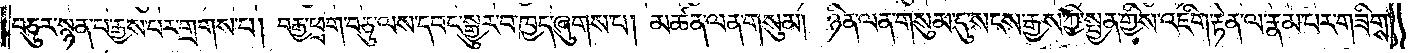བཅུར་སྙན་པ་རྒྱས་པར་གྲགས་པ། བརྒྱ་ཕྲག་བཅུ་ལས་དབང་སྒྱུར་བ་ཁྱད་ཞུགས་པ། མཚན་ལན་གསུམ། ཉིན་ལན་གསུམ་དུ་སངས་རྒྱས་ཀྱི་སྤྱན་གྱིས་འཇིག་རྟེན་ལ་རྣམ་པར་གཟིགས་
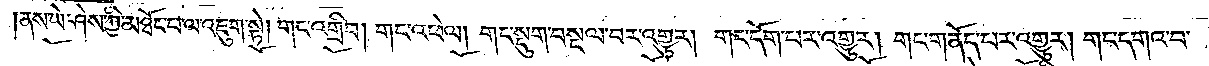ནས་ཡེ་ཤེས་ཀྱི་མཐོང་བ་ལ་འཇུག་སྟེ། གང་འགྲིབ། གང་འཕེལ། གང་སྡུག་བསྔལ་བར་འགྱུར། གང་དོག་པར་འགྱུར། གང་གནོད་པར་འགྱུར། གང་དགའ་བ་
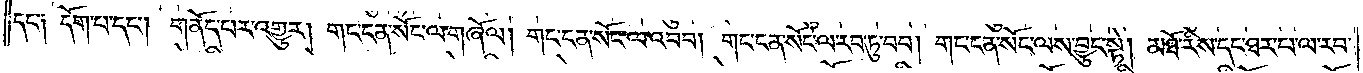དང་༑ དོག་པ་དང༌། གནོད་པར་འགྱུར། གང་ངན་སོང་ལ་གཞོལ། གང་ངན་སོང་ལ་འབབ། གང་ངན་སོང་ལ་རབ་ཏུ་བབ། གང་ངན་སོང་ལས་བྱུང་སྟེ། མཐོ་རིས་དང་ཐར་པ་ལ་རབ་
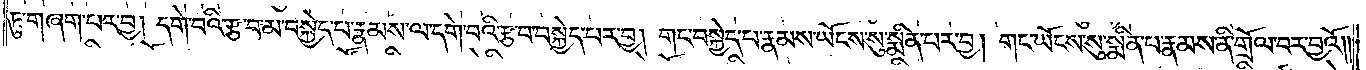ཏུ་གཞག་པར་བྱ། དགེ་བའི་རྩ་བ་མ་བསྐྱེད་པ་རྣམས་ལ་དགེ་བའི་རྩ་བ་བསྐྱེད་པར་བྱ། གང་བསྐྱེད་པ་རྣམས་ཡོངས་སུ་སྨིན་པར་བྱ། གང་ཡོངས་སུ་སྨིན་པ་རྣམས་ནི་གྲོལ་བར་བྱའོ༎
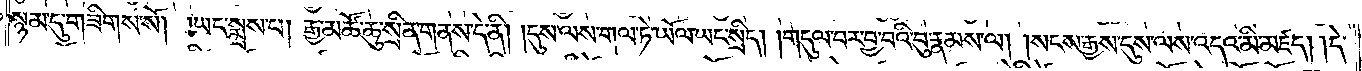སྙམ་དུ་གཟིགས་སོ། །ཡང་སྨྲས་པ། རྒྱ་མཚོ་ཆུ་སྲིན་གནས་དེ་ནི། །དུས་ལས་གལ་ཏེ་ཡོལ་ཡང་སྲིད། །གདུལ་བར་བྱ་བའི་བུ་རྣམས་ལ། །སངས་རྒྱས་དུས་ལས་འདའ་མི་མཛད། །དེ་
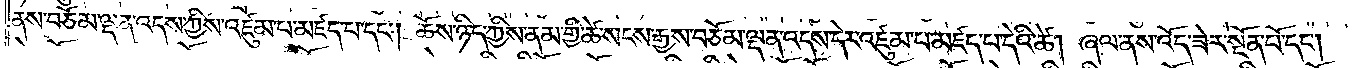ནས་བཅོམ་ལྡན་འདས་ཀྱིས་འཛུམ་པ་མཛད་པ་དང༌། ཆོས་ཉིད་ཀྱིས་ནམ་གྱི་ཚེ་སངས་རྒྱས་བཅོམ་ལྡན་འདས་དེར་འཛུམ་པ་མཛད་པ་དེའི་ཚེ། ཞལ་ནས་འོད་ཟེར་སྔོན་པོ་དང༌།
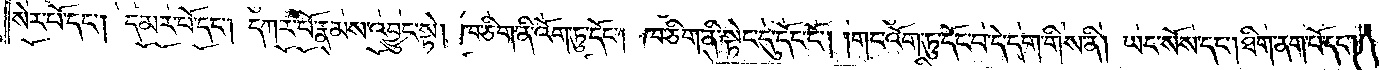སེར་པོ་དང༌། དམར་པོ་དང༌། དཀར་པོ་རྣམས་འབྱུང་སྟེ། ཁ་ཅིག་ནི་འོག་ཏུ་དོང༌། ཁ་ཅིག་ནི་སྟེང་དུ་དོང་ངོ༌། །གང་འོག་ཏུ་དོང་བ་དེ་དག་གིས་ནི། ཡང་སོས་དང༌། ཐིག་ནག་པོ་དང༌།
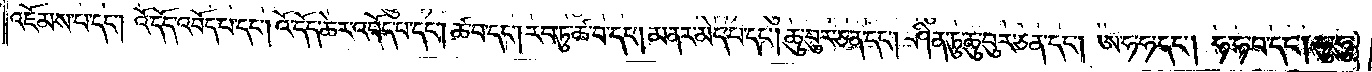འཇོམས་པ་དང༌། འོ་དོད་འབོད་པ་དང༌། འོ་དོད་ཆེར་འབོད་པ་དང༌། ཚ་བ་དང༌། རབ་ཏུ་ཚ་བ་དང༌། མནར་མེད་པ་དང༌། ཆུ་བུར་ཅན་དང༌། ཤིན་ཏུ་ཆུ་བུར་ཅན་དང༌། ཨ་ཧ་ཧ་དང༌། ཧ་ཧ་བ་དང༌། ཧུ་ཧུ་
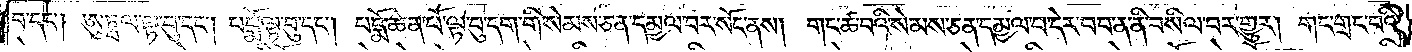བ་དང༌། ཨུཏྤལ་ལྟ་བུ་དང༌། པདྨོ་ལྟ་བུ་དང༌། པདྨོ་ཆེན་པོ་ལྟ་བུ་དག་གི་སེམས་ཅན་དམྱལ་བར་སོང་ནས། གང་ཚ་བའི་སེམས་ཅན་དམྱལ་བ་དེར་བབ་ན་ནི་བསིལ་བར་གྱུར། གང་གྲང་བའི་
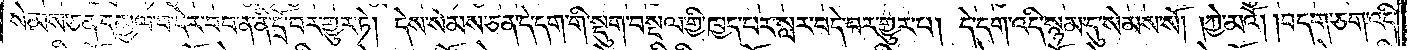སེམས་ཅན་དམྱལ་བ་དེར་བབ་ན་ནི་དྲོ་བར་གྱུར་ཏེ། དེས་སེམས་ཅན་དེ་དག་གི་སྡུག་བསྔལ་གྱི་ཁྱད་པར་སླར་བདེ་བར་གྱུར་པ། དེ་དག་འདི་སྙམ་དུ་སེམས་སོ། །ཀྱེ་མའོ། །བདག་ཅག་འདི་
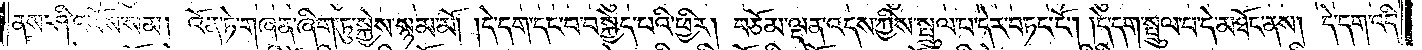ནས་ཤི་འཕོས་སམ། འོན་ཏེ་གཞན་ཞིག་ཏུ་སྐྱེས་སྙམ་མོ། །དེ་དག་དང་བ་བསྐྱེད་པའི་ཕྱིར། བཅོམ་ལྡན་འདས་ཀྱིས་སྤྲུལ་པ་དེར་བཏང་ངོ༌། །དེ་དག་སྤྲུལ་པ་དེ་མཐོང་ནས། དེ་དག་འདི་
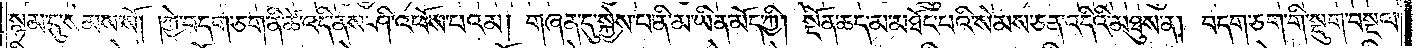སྙམ་དུ་སེམས་སོ། །ཀྱེ་བདག་ཅག་ནི་ཚེ་འདི་ནས་ཤི་འཕོས་པའམ། གཞན་དུ་སྐྱེས་པ་ནི་མ་ཡིན་མོད་ཀྱི། སྔོན་ཆད་མ་མཐོང་བའི་སེམས་ཅན་འདིའི་མཐུས་ན། བདག་ཅག་གི་སྡུག་བསྔལ་
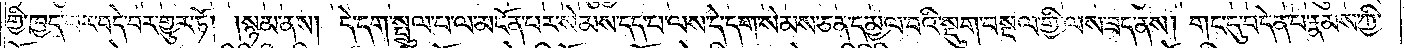གྱི་ཁྱད་པར་བདེ་བར་གྱུར་ཏོ། །སྙམ་ནས། དེ་དག་སྤྲུལ་པ་ལ་མངོན་པར་སེམས་དད་པ་ལས་དེ་དག་སེམས་ཅན་དམྱལ་བའི་སྡུག་བསྔལ་གྱི་ལས་ཟད་ནས། གང་དུ་བདེན་པ་རྣམས་ཀྱི་
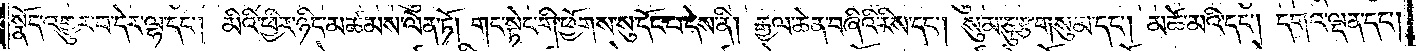སྣོད་འགྱུར་བ་དེར་ལྷ་དང༌། མིའི་ཕྱིར་ཉིད་མཚམས་ལེན་ཏོ། །གང་སྟེང་གི་ཕྱོགས་སུ་དོང་པ་དེས་ནི། རྒྱལ་ཆེན་བཞིའི་རིས་དང༌། སུམ་ཅུ་རྩ་གསུམ་དང༌། མཚེ་མའི་དང༌། དགའ་ལྡན་དང༌།
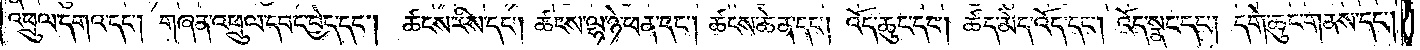འཕྲུལ་དགའ་དང༌། གཞན་འཕྲུལ་དབང་བྱེད་དང༌། ཚངས་རིས་དང༌། ཚངས་ལྷ་ཉེ་ཕན་དང༌། ཚངས་ཆེན་དང༌། འོད་ཆུང་དང༌། ཚད་མེད་འོད་དང༌། འོད་སྣང་དང༌། དགེ་ཆུང་གནས་དང༌།
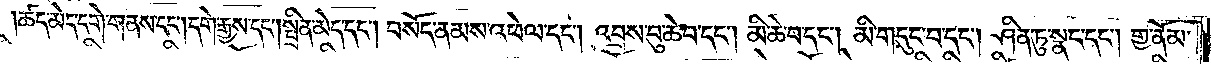ཚད་མེད་དགེ་གནས་དང༌། དགེ་རྒྱས་དང༌། སྤྲིན་མེད་དང༌། བསོད་ནམས་འཕེལ་དང༌། འབྲས་བུ་ཆེ་བ་དང༌། མི་ཆེ་བ་དང༌། མི་གདུང་བ་དང༌། ཤིན་ཏུ་སྣང་དང༌། གྱ་ནོམ་
